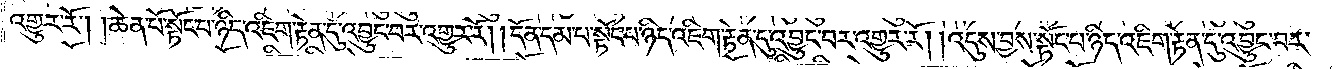འགྱུར་རོ། །ཆེན་པོ་སྟོང་པ་ཉིད་འཇིག་རྟེན་དུ་འབྱུང་བར་འགྱུར་རོ། །དོན་དམ་པ་སྟོང་པ་ཉིད་འཇིག་རྟེན་དུ་འབྱུང་བར་འགྱུར་རོ། །འདུས་བྱས་སྟོང་པ་ཉིད་འཇིག་རྟེན་དུ་འབྱུང་བར་
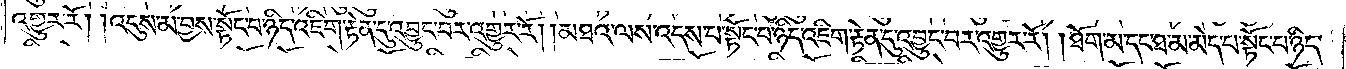འགྱུར་རོ། །འདུས་མ་བྱས་སྟོང་པ་ཉིད་འཇིག་རྟེན་དུ་འབྱུང་བར་འགྱུར་རོ། །མཐའ་ལས་འདས་པ་སྟོང་པ་ཉིད་འཇིག་རྟེན་དུ་འབྱུང་བར་འགྱུར་རོ། །ཐོག་མ་དང་ཐ་མ་མེད་པ་སྟོང་པ་ཉིད་
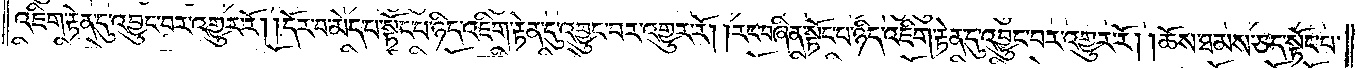འཇིག་རྟེན་དུ་འབྱུང་བར་འགྱུར་རོ། །དོར་བ་མེད་པ་སྟོང་པ་ཉིད་འཇིག་རྟེན་དུ་འབྱུང་བར་འགྱུར་རོ། །རང་བཞིན་སྟོང་པ་ཉིད་འཇིག་རྟེན་དུ་འབྱུང་བར་འགྱུར་རོ། །ཆོས་ཐམས་ཅད་སྟོང་པ་
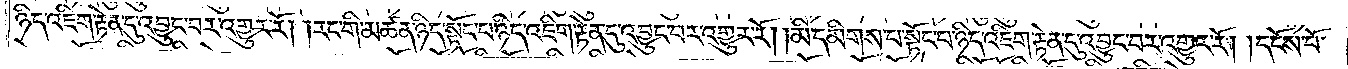ཉིད་འཇིག་རྟེན་དུ་འབྱུང་བར་འགྱུར་རོ། །རང་གི་མཚན་ཉིད་སྟོང་པ་ཉིད་འཇིག་རྟེན་དུ་འབྱུང་བར་འགྱུར་རོ། །མི་དམིགས་པ་སྟོང་པ་ཉིད་འཇིག་རྟེན་དུ་འབྱུང་བར་འགྱུར་རོ། །དངོས་པོ་
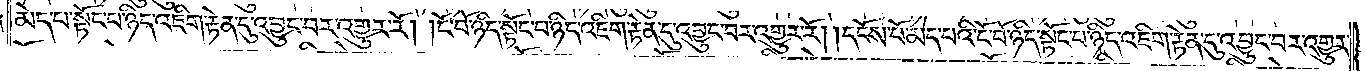མེད་པ་སྟོང་པ་ཉིད་འཇིག་རྟེན་དུ་འབྱུང་བར་འགྱུར་རོ། །ངོ་བོ་ཉིད་སྟོང་པ་ཉིད་འཇིག་རྟེན་དུ་འབྱུང་བར་འགྱུར་རོ། །དངོས་པོ་མེད་པའི་ངོ་བོ་ཉིད་སྟོང་པ་ཉིད་འཇིག་རྟེན་དུ་འབྱུང་བར་འགྱུར་
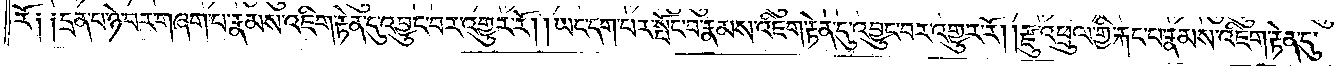རོ༑ ༑དྲན་པ་ཉེ་བར་གཞག་པ་རྣམས་འཇིག་རྟེན་དུ་འབྱུང་བར་འགྱུར་རོ། །ཡང་དག་པར་སྤོང་བ་རྣམས་འཇིག་རྟེན་དུ་འབྱུང་བར་འགྱུར་རོ། །རྫུ་འཕྲུལ་གྱི་རྐང་པ་རྣམས་འཇིག་རྟེན་དུ་
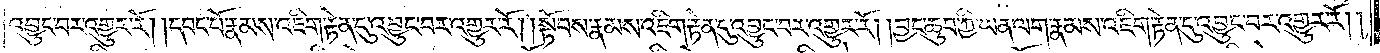འབྱུང་བར་འགྱུར་རོ། །དབང་པོ་རྣམས་འཇིག་རྟེན་དུ་འབྱུང་བར་འགྱུར་རོ། །སྟོབས་རྣམས་འཇིག་རྟེན་དུ་འབྱུང་བར་འགྱུར་རོ། །བྱང་ཆུབ་ཀྱི་ཡན་ལག་རྣམས་འཇིག་རྟེན་དུ་འབྱུང་བར་འགྱུར་རོ༎
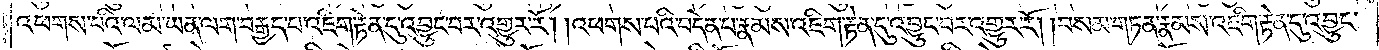འཕགས་པའི་ལམ་ཡན་ལག་བརྒྱད་པ་འཇིག་རྟེན་དུ་འབྱུང་བར་འགྱུར་རོ། །འཕགས་པའི་བདེན་པ་རྣམས་འཇིག་རྟེན་དུ་འབྱུང་བར་འགྱུར་རོ། །བསམ་གཏན་རྣམས་འཇིག་རྟེན་དུ་འབྱུང་
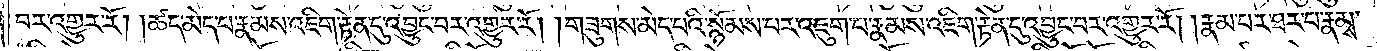བར་འགྱུར་རོ། །ཚད་མེད་པ་རྣམས་འཇིག་རྟེན་དུ་འབྱུང་བར་འགྱུར་རོ། །གཟུགས་མེད་པའི་སྙོམས་པར་འཇུག་པ་རྣམས་འཇིག་རྟེན་དུ་འབྱུང་བར་འགྱུར་རོ། །རྣམ་པར་ཐར་པ་རྣམས་
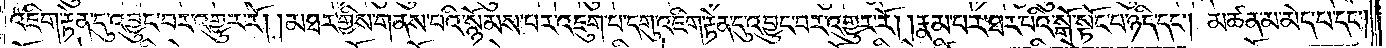འཇིག་རྟེན་དུ་འབྱུང་བར་འགྱུར་རོ། །མཐར་གྱིས་གནས་པའི་སྙོམས་པར་འཇུག་པ་དགུ་འཇིག་རྟེན་དུ་འབྱུང་བར་འགྱུར་རོ། །རྣམ་པར་ཐར་པའི་སྒོ་སྟོང་པ་ཉིད་དང༌། མཚན་མ་མེད་པ་དང༌།
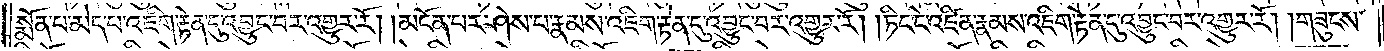སྨོན་པ་མེད་པ་འཇིག་རྟེན་དུ་འབྱུང་བར་འགྱུར་རོ། །མངོན་པར་ཤེས་པ་རྣམས་འཇིག་རྟེན་དུ་འབྱུང་བར་འགྱུར་རོ། །ཏིང་ངེ་འཛིན་རྣམས་འཇིག་རྟེན་དུ་འབྱུང་བར་འགྱུར་རོ། །གཟུངས་
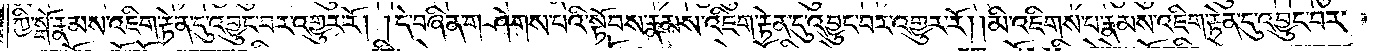ཀྱི་སྒོ་རྣམས་འཇིག་རྟེན་དུ་འབྱུང་བར་འགྱུར་རོ། །དེ་བཞིན་གཤེགས་པའི་སྟོབས་རྣམས་འཇིག་རྟེན་དུ་འབྱུང་བར་འགྱུར་རོ། །མི་འཇིགས་པ་རྣམས་འཇིག་རྟེན་དུ་འབྱུང་བར་
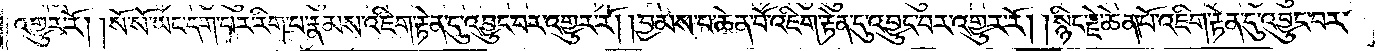འགྱུར་རོ། །སོ་སོ་ཡང་དག་པར་རིག་པ་རྣམས་འཇིག་རྟེན་དུ་འབྱུང་བར་འགྱུར་རོ། །བྱམས་པ་ཆེན་པོ་འཇིག་རྟེན་དུ་འབྱུང་བར་འགྱུར་རོ། །སྙིང་རྗེ་ཆེན་པོ་འཇིག་རྟེན་དུ་འབྱུང་བར་
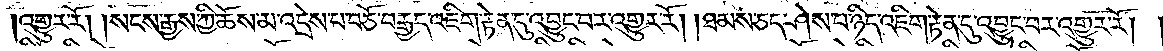འགྱུར་རོ། །སངས་རྒྱས་ཀྱི་ཆོས་མ་འདྲེས་པ་བཅོ་བརྒྱད་འཇིག་རྟེན་དུ་འབྱུང་བར་འགྱུར་རོ། །ཐམས་ཅད་ཤེས་པ་ཉིད་འཇིག་རྟེན་དུ་འབྱུང་བར་འགྱུར་རོ། །
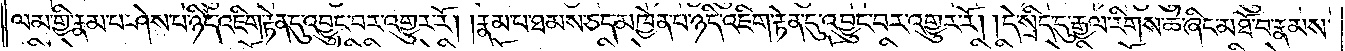ལམ་གྱི་རྣམ་པ་ཤེས་པ་ཉིད་འཇིག་རྟེན་དུ་འབྱུང་བར་འགྱུར་རོ། ། རྣམ་པ་ཐམས་ཅད་མཁྱེན་པ་ཉིད་འཇིག་རྟེན་དུ་འབྱུང་བར་འགྱུར་རོ། །དེ་སྲིད་དུ་རྒྱལ་རིགས་ཆེ་ཞིང་མཐོ་བ་རྣམས་
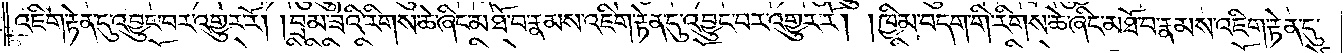འཇིག་རྟེན་དུ་འབྱུང་བར་འགྱུར་རོ། །བྲམ་ཟེའི་རིགས་ཆེ་ཞིང་མཐོ་བ་རྣམས་འཇིག་རྟེན་དུ་འབྱུང་བར་འགྱུར་རོ། །ཁྱིམ་བདག་གི་རིགས་ཆེ་ཞིང་མཐོ་བ་རྣམས་འཇིག་རྟེན་དུ་
